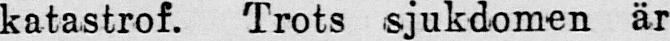katastrof. Trots sjukdomen är
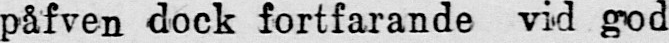påfven dock fortfarande vid god
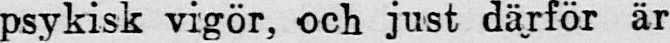psykisk vigör, och just därför är
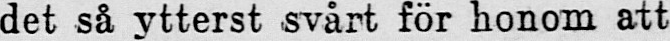det så ytterst svårt för honom att
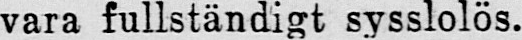vara fullständigt sysslolös.
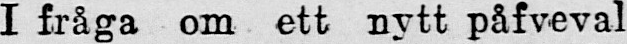I fråga om ett nytt påfveval
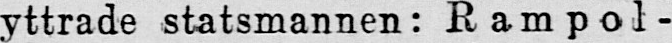yttrade statsmannen: Rampol-
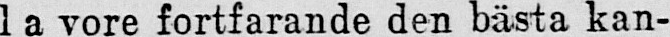la vore fortfarande den bästa kan-
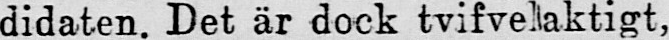didaten. Det är dock tvifveilaktigt,
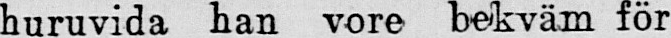huruvida han vore bekväm för
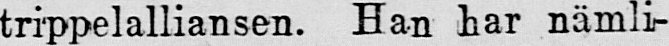trippelalliansen. Han har nämli-
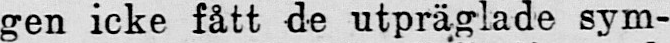gen icke fått de utpräglade sym-
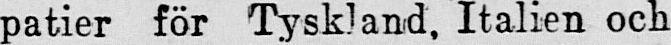patier för Tyskland, Italien och
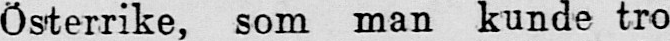Österrike, som man kunde tro
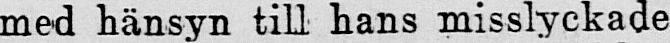med hänsyn till hans misslyckade
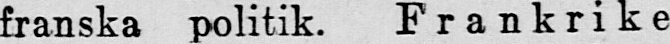franska politik. Frankrike
